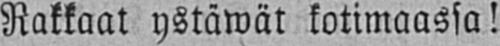Rakkaat ystäwät kotimaassa!
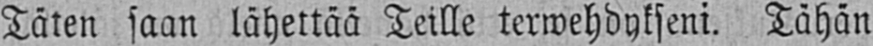Täten saan lähettää Teille terwehdykseni. Tähän
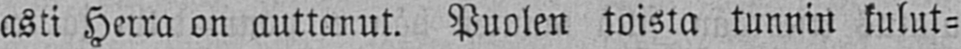asti Herra on auttanut. Puolen toista tunnin kulut-
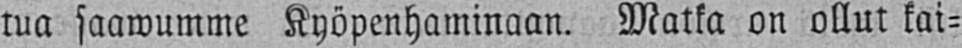tua saawumme Kyöpenhaminaan. Matka on ollut kai-
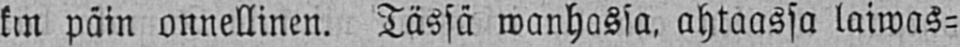kin päin onnellinen. Tässä wanhassa, ahtaassa laiwas-
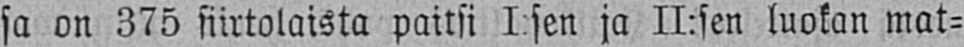sa on 375 siirtolaista paitsi I sen ja II:sen luokan mat-
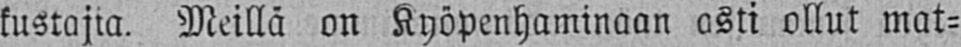kustajia. Meillä on Kyöpenhaminaan asti ollut mat-
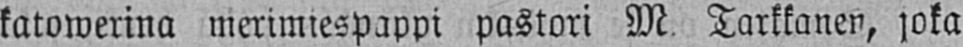katowerina merimiespappi pastori M. Tarkkanen, joka
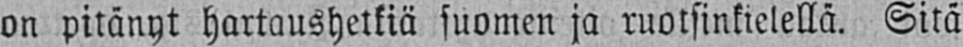on pitänyt hartaushetkiä suomen ja ruotsinkielellä. Sitä
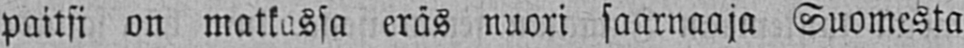paitsi on matkassa eräs nuori saarnaaja Suomesta
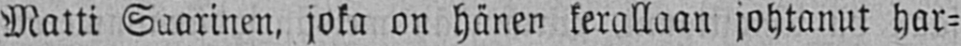Matti Saarinen, joka on hänen kerallaan johtanut har-
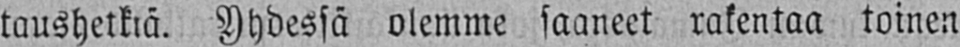taushetkiä. Yhdessä olemme saaneet rakentaa toinen
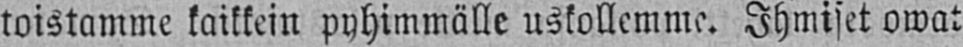toistamme kaikkein pyhimmälle uskollemme. Ihmiset owat
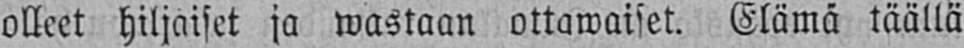olleet hiljaiset ja wastaan ottawaiset. Elämä täällä
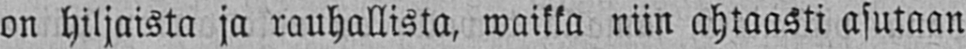on hiljaista ja rauhallista, waikka niin ahtaasti asutaan
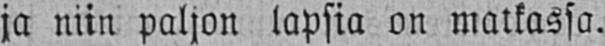ja niin paljon lapsia on matkassa.
